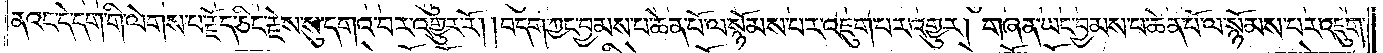ནའང་དེ་དག་གི་ལེགས་པ་རྗོད་ཅིང་རྗེས་སུ་དགའ་བར་འགྱུར་རོ། །བདག་ཀྱང་བྱམས་པ་ཆེན་པོ་ལ་སྙོམས་པར་འཇུག་པར་འགྱུར། གཞན་ཡང་བྱམས་པ་ཆེན་པོ་ལ་སྙོམས་པར་འཇུག་
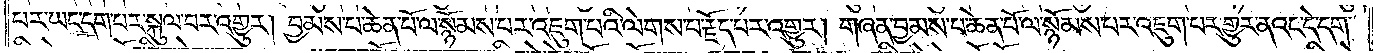པར་ཡང་དག་པར་སྐུལ་བར་འགྱུར། བྱམས་པ་ཆེན་པོ་ལ་སྙོམས་པར་འཇུག་པའི་ལེགས་པ་རྗོད་པར་འགྱུར། གཞན་བྱམས་པ་ཆེན་པོ་ལ་སྙོམས་པར་འཇུག་པར་གྱུར་ནའང་དེ་དག་
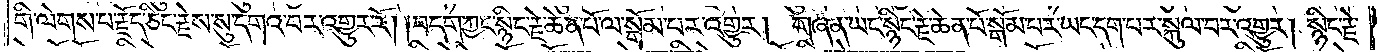གི་ལེགས་པ་རྗོད་ཅིང་རྗེས་སུ་དགའ་བར་འགྱུར་རོ། །བདག་ཀྱང་སྙིང་རྗེ་ཆེན་པོ་ལ་སྒོམ་པར་འགྱུར། གཞན་ཡང་སྙིང་རྗེ་ཆེན་པོ་སྒོམ་པར་ཡང་དག་པར་སྐུལ་བར་འགྱུར། སྙིང་རྗེ་
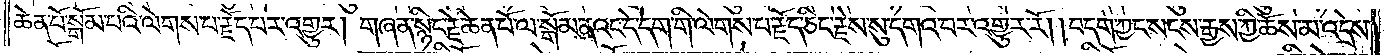ཆེན་པོ་སྒོམ་པའི་ལེགས་པ་རྗོད་པར་འགྱུར། གཞན་སྙིང་རྗེ་ཆེན་པོ་ལ་སྒོམ་ནའང་དེ་དག་གི་ལེགས་པ་རྗོད་ཅིང་རྗེས་སུ་དགའ་བར་འགྱུར་རོ། །བདག་ཀྱང་སངས་རྒྱས་ཀྱི་ཆོས་མ་འདྲེས་
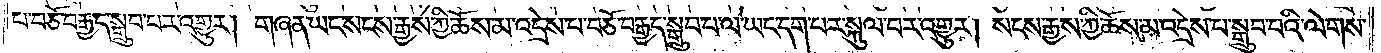པ་བཅོ་བརྒྱད་སྒྲུབ་པར་འགྱུར། གཞན་ཡང་སངས་རྒྱས་ཀྱི་ཆོས་མ་འདྲེས་པ་བཅོ་བརྒྱད་བསྒྲུབ་པ་ལ་ཡང་དག་པར་སྐུལ་བར་འགྱུར། སངས་རྒྱས་ཀྱི་ཆོས་མ་འདྲེས་པ་བསྒྲུབ་པའི་ལེགས་
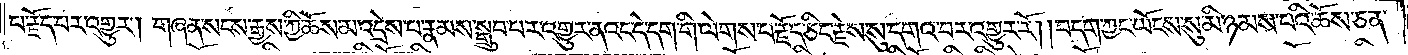པ་རྗོད་པར་འགྱུར། གཞན་སངས་རྒྱས་ཀྱི་ཆོས་མ་འདྲེས་པ་རྣམས་སྒྲུབ་པར་འགྱུར་ནའང་དེ་དག་གི་ལེགས་པ་རྗོད་ཅིང་རྗེས་སུ་དགའ་བར་འགྱུར་རོ། །བདག་ཀྱང་ཡོངས་སུ་མི་ཉམས་པའི་ཆོས་ཅན་
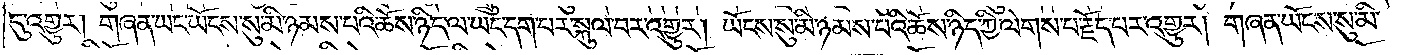དུ་འགྱུར། གཞན་ཡང་ཡོངས་སུ་མི་ཉམས་པའི་ཆོས་ཉིད་ལ་ཡང་དག་པར་སྐུལ་བར་འགྱུར། ཡོངས་སུ་མི་ཉམས་པའི་ཆོས་ཉིད་ཀྱི་ལེགས་པ་རྗོད་པར་འགྱུར། གཞན་ཡོངས་སུ་མི་
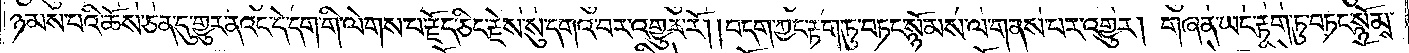ཉམས་པའི་ཆོས་ཅན་དུ་གྱུར་ནའང་དེ་དག་གི་ལེགས་པ་རྗོད་ཅིང་རྗེས་སུ་དགའ་བར་འགྱུར་རོ། །བདག་ཀྱང་རྟག་ཏུ་བཏང་སྙོམས་ལ་གནས་པར་འགྱུར། གཞན་ཡང་རྟག་ཏུ་བཏང་སྙོམས་
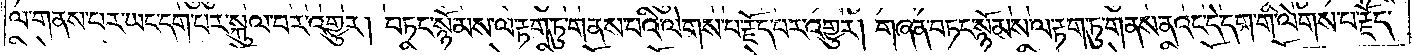ལ་གནས་པར་ཡང་དག་པར་སྐུལ་བར་འགྱུར། བཏང་སྙོམས་ལ་རྟག་ཏུ་གནས་པའི་ལེགས་པ་རྗོད་པར་འགྱུར། གཞན་བཏང་སྙོམས་ལ་རྟག་ཏུ་གནས་ནའང་དེ་དག་གི་ལེགས་པ་རྗོད་
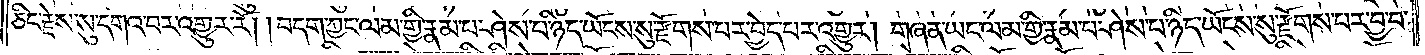ཅིང་རྗེས་སུ་དགའ་བར་འགྱུར་རོ། །བདག་ཀྱང་ལམ་གྱི་རྣམ་པ་ཤེས་པ་ཉིད་ཡོངས་སུ་རྫོགས་པར་བྱེད་པར་འགྱུར། གཞན་ཡང་ལམ་གྱི་རྣམ་པ་ཤེས་པ་ཉིད་ཡོངས་སུ་རྫོགས་པར་བྱ་བ་
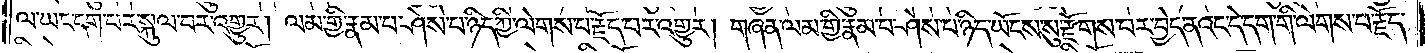ལ་ཡང་དག་པར་སྐུལ་བར་འགྱུར། ལམ་གྱི་རྣམ་པ་ཤེས་པ་ཉིད་ཀྱི་ལེགས་པ་རྗོད་པར་འགྱུར། གཞན་ལམ་གྱི་རྣམ་པ་ཤེས་པ་ཉིད་ཡོངས་སུ་རྫོགས་པར་བྱེད་ནའང་དེ་དག་གི་ལེགས་པ་རྗོད་
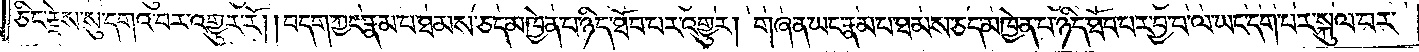ཅིང་རྗེས་སུ་དགའ་བར་འགྱུར་རོ། །བདག་ཀྱང་རྣམ་པ་ཐམས་ཅད་མཁྱེན་པ་ཉིད་ཐོབ་པར་འགྱུར། གཞན་ཡང་རྣམ་པ་ཐམས་ཅད་མཁྱེན་པ་ཉིད་ཐོབ་པར་བྱ་བ་ལ་ཡང་དག་པར་སྐུལ་བར་
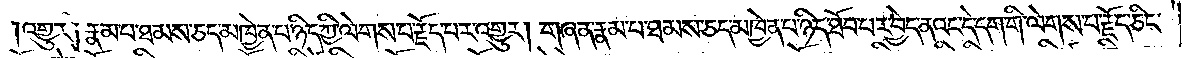འགྱུར། རྣམ་པ་ཐམས་ཅད་མཁྱེན་པ་ཉིད་ཀྱི་ལེགས་པ་རྗོད་པར་འགྱུར། གཞན་རྣམ་པ་ཐམས་ཅད་མཁྱེན་པ་ཉིད་ཐོབ་པར་བྱེད་ནའང་དེ་དག་གི་ལེགས་པ་རྗོད་ཅིང་
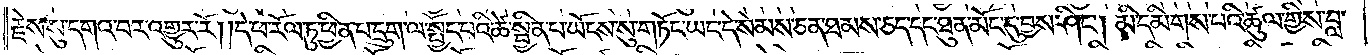རྗེས་སུ་དགའ་བར་འགྱུར་རོ། །དེ་ཕ་རོལ་ཏུ་ཕྱིན་པ་དྲུག་ལ་སྤྱོད་པའི་ཚེ་སྦྱིན་པ་ཡོངས་སུ་གཏོང་ཡང་དེ་སེམས་ཅན་ཐམས་ཅད་དང་ཐུན་མོང་དུ་བྱས་ཤིང༌། མི་དམིགས་པའི་ཚུལ་གྱིས་བླ་
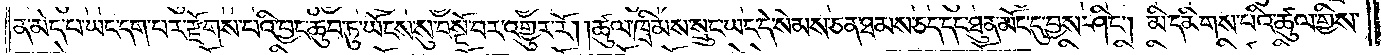ན་མེད་པ་ཡང་དག་པར་རྫོགས་པའི་བྱང་ཆུབ་ཏུ་ཡོངས་སུ་སྔོ་བར་འགྱུར་རོ། །ཚུལ་ཁྲིམས་སྲུང་ཡང་དེ་སེམས་ཅན་ཐམས་ཅད་དང་ཐུན་མོང་དུ་བྱས་ཤིང༌། མི་དམིགས་པའི་ཚུལ་གྱིས་
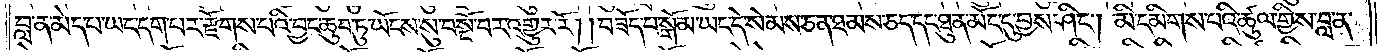བླ་ན་མེད་པ་ཡང་དག་པར་རྫོགས་པའི་བྱང་ཆུབ་ཏུ་ཡོངས་སུ་སྔོ་བར་འགྱུར་རོ། །བཟོད་པ་སྒོམ་ཡང་དེ་སེམས་ཅན་ཐམས་ཅད་དང་ཐུན་མོང་དུ་བྱས་ཤིང༌། མི་དམིགས་པའི་ཚུལ་གྱིས་བླ་ན་
